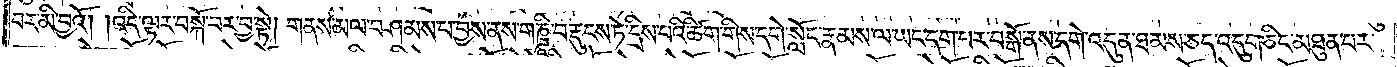བར་མི་བྱའོ། །འདི་ལྟར་བསྐོ་བར་བྱ་སྟེ། གནས་མལ་བཤམས་པ་བྱས་ནས་གཎྜཱི་བརྡུངས་ཏེ་དྲིས་པའི་ཚིག་གིས་དགེ་སློང་རྣམས་ལ་ཡང་དག་པར་བསྒོ་ནས་དགེ་འདུན་ཐམས་ཅད་འདུག་ཅིང་མཐུན་པར་
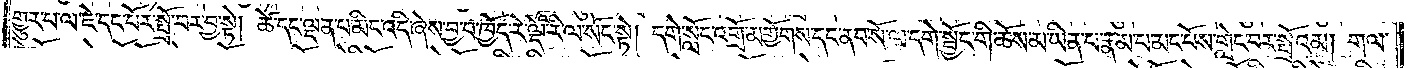གྱུར་པ་ལ་ཇེ་དང་པོར་སྤྲོ་བར་བྱ་སྟེ། ཚེ་དང་ལྡན་པ་མིང་འདི་ཞེས་བྱ་བ་ཁྱོད་རེ་ལྡེ་རི་ལ་སོང་སྟེ། དགེ་སློང་འགྲོ་མགྱོགས་དང་ནབ་སོ་ལ་དགེ་སྦྱོང་གི་ཆོས་མ་ཡིན་པ་རྣམ་པ་མང་པོས་གླེང་བར་སྤྲོའམ། གལ་
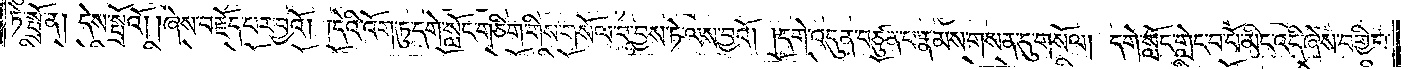ཏེ་སྤྲོ་ན། དེས་སྤྲོའོ། །ཞེས་བརྗོད་པར་བྱའོ། །དེའི་འོག་ཏུ་དགེ་སློང་གཅིག་གིས་གསོལ་བ་བྱས་ཏེ་ལས་བྱའོ། །དགེ་འདུན་བཙུན་པ་རྣམས་གསན་དུ་གསོལ། དགེ་སློང་གླེང་བ་པོ་མིང་འདི་ཞེས་བགྱི་བ་
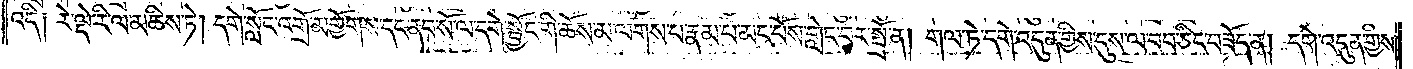འདི༑ རེ་ལྡེ་རི་ལ་མཆིས་ཏེ། དགེ་སློང་འགྲོ་མགྱོགས་དང་ནབ་སོ་ལ་དགེ་སྦྱོང་གི་ཆོས་མ་ལགས་པ་རྣམ་པ་མང་པོས་གླེང་བར་སྤྲོ་ན། གལ་ཏེ་དགེ་འདུན་གྱིས་དུས་ལ་བབ་ཅིང་བཟོད་ན། དགེ་འདུན་གྱིས་
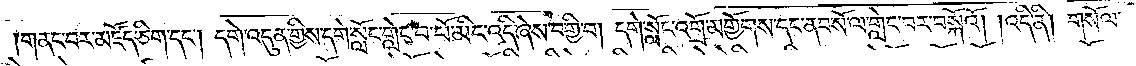གནང་བར་མཛོད་ཅིག་དང༌། དགེ་འདུན་གྱིས་དགེ་སློང་གླེང་བ་པོ་མིང་འདི་ཞེས་བགྱི་བ། དགེ་སློང་འགྲོ་མགྱོགས་དང་ནབ་སོ་ལ་གླེང་བར་བསྐོའོ། །འདི་ནི། གསོལ་
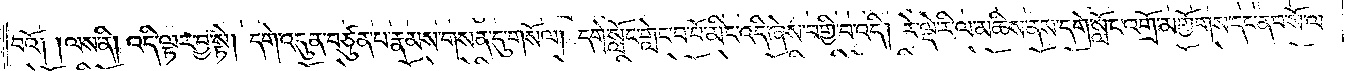བའོ། །ལས་ནི། འདི་ལྟར་བྱ་སྟེ། དགེ་འདུན་བཙུན་པ་རྣམས་གསན་དུ་གསོལ། དགེ་སློང་གླེང་བ་པོ་མིང་འདི་ཞེས་བགྱི་བ་འདི། རེ་ལྡེ་རི་ལ་མཆིས་ནས་དགེ་སློང་འགྲོ་མགྱོགས་དང་ནབ་སོ་ལ་
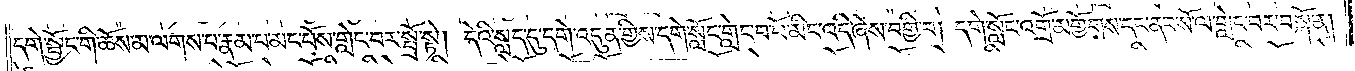དགེ་སྦྱོང་གི་ཆོས་མ་ལགས་པ་རྣམ་པ་མང་པོས་གླེང་བར་སྤྲོ་སྟེ། དེའི་སླད་དུ་དགེ་འདུན་གྱིས་དགེ་སློང་གླེང་བ་པོ་མིང་འདི་ཞེས་བགྱི་བ། དགེ་སློང་འགྲོ་མགྱོགས་དང་ནབ་སོ་ལ་གླེང་བར་བསྐོ་ན།
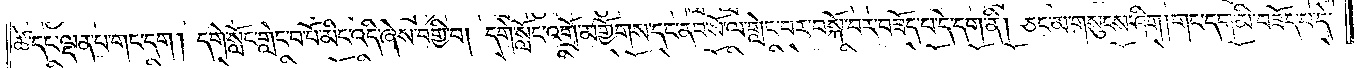ཚེ་དང་ལྡན་པ་གང་དག། དགེ་སློང་གླེང་བ་པོ་མིང་འདི་ཞེས་བགྱི་བ། དགེ་སློང་འགྲོ་མགྱོགས་དང་ནབ་སོ་ལ་གླེང་བར་བསྐོ་བར་བཟོད་པ་དེ་དག་ནི། ཅང་མ་གསུངས་ཤིག །གང་དག་མི་བཟོད་པ་དེ་
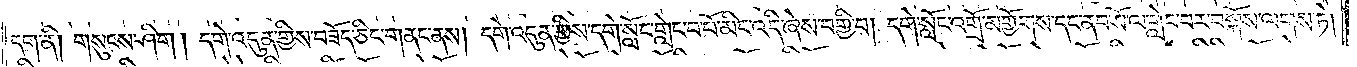དག་ནི། གསུངས་ཤིག །དགེ་འདུན་གྱིས་བཟོད་ཅིང་གནང་ནས། དགེ་འདུན་གྱིས་དགེ་སློང་གླེང་བ་པོ་མིང་འདི་ཞེས་བགྱི་བ། དགེ་སློང་འགྲོ་མགྱོགས་དང་ནབ་སོ་ལ་གླེང་བར་བསྐོས་ལགས་ཏེ།
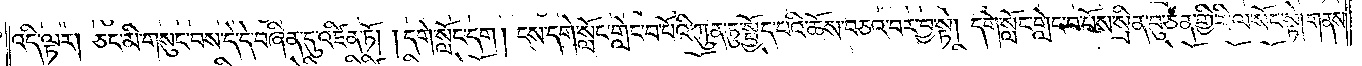འདི་ལྟར། ཅང་མི་གསུང་བས་དེ་དེ་བཞིན་དུ་འཛིན་ཏོ། །དགེ་སློང་དག། ངས་དགེ་སློང་གླེང་བ་པོའི་ཀུན་ཏུ་སྤྱོད་པའི་ཆོས་བཅའ་བར་བྱ་སྟེ། དགེ་སློང་གླེང་བ་པོས་སྲིན་བུ་ཅན་གྱི་རི་ལ་སོང་སྟེ། གནས་
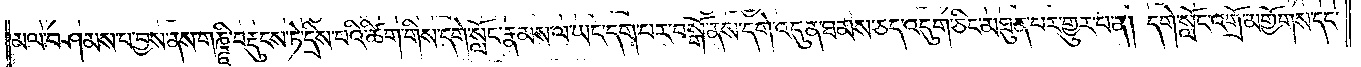མལ་བཤམས་པ་བྱས་ནས་གཎྜཱི་བརྡུངས་ཏེ་དྲིས་པའི་ཚིག་གིས་དགེ་སློང་རྣམས་ལ་ཡང་དག་པར་བསྒོ་ནས་དགེ་འདུན་ཐམས་ཅད་འདུག་ཅིང་མཐུན་པར་གྱུར་པ་ན། དགེ་སློང་འགྲོ་མགྱོགས་དང་
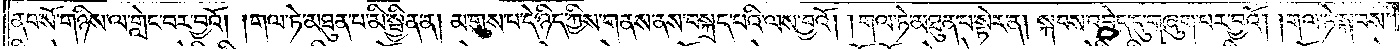ནབ་སོ་གཉིས་ལ་གླེང་བར་བྱའོ། །གལ་ཏེ་མཐུན་པ་མི་སྦྱིན་ན། མ་གུས་པ་དེ་ཉིད་ཀྱིས་གནས་ནས་བསྐྲད་པའི་ལས་བྱའོ། །གལ་ཏེ་མཐུན་པ་སྟེར་ན། སྐབས་འབྱེད་དུ་གཞུག་པར་བྱའོ། །གལ་ཏེ་སྐབས་
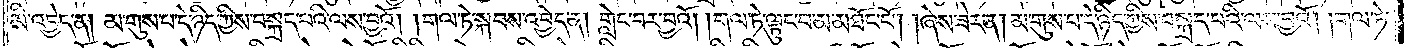མི་འབྱེད་ན། མ་གུས་པ་དེ་ཉིད་ཀྱིས་བསྐྲད་པའི་ལས་བྱའོ། །གལ་ཏེ་སྐབས་འབྱེད་ན། གླེང་བར་བྱའོ། །གལ་ཏེ་ལྟུང་བ་མ་མཐོང་ངོ༌། །ཞེས་ཟེར་ན། མ་གུས་པ་དེ་ཉིད་ཀྱིས་བསྐྲད་པའི་ལས་བྱའོ། །གལ་ཏེ་
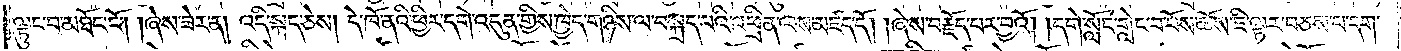ལྟུང་བ་མཐོང་ངོ༌། །ཞེས་ཟེར་ན། འདི་སྐད་ཅེས། དེ་ཁོ་ནའི་ཕྱིར་དགེ་འདུན་གྱིས་ཁྱེད་གཉིས་ལ་བསྐྲད་པའི་འཕྲིན་ལས་མཛད་དོ། །ཞེས་བརྗོད་པར་བྱའོ། །དགེ་སློང་གླེང་བ་བོས་ཆོས་ཇི་ལྟར་བཅས་པ་དག་
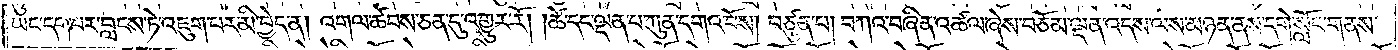ཡང་དག་པར་བླངས་ཏེ་འཇུག་པར་མི་བྱེད་ན། འགལ་ཚབས་ཅན་དུ་འགྱུར་རོ། །ཚེ་དང་ལྡན་པ་ཀུན་དགའ་བོས། བཙུན་པ། བཀའ་བཞིན་འཚལ་ཞེས་བཅོམ་ལྡན་འདས་ལས་མཉན་ནས་དགེ་སློང་གནས་
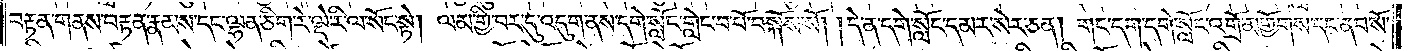བརྟན་གནས་བརྟན་རྣམས་དང་ལྷན་ཅིག་རེ་ལྡེ་རི་ལ་སོང་སྟེ། ལམ་གྱི་བར་དུ་འདུག་ནས་དགེ་སློང་གླེང་བ་པོ་བསྐོས་སོ། །དེ་ན་དགེ་སློང་དམར་སེར་ཅན། གང་དག་དགེ་སློང་འགྲོ་མགྱོགས་དང་ནབ་སོ་
